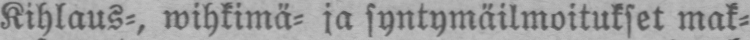Kihlaus-, wihkimä- ja syntymäilmoitukset mak-
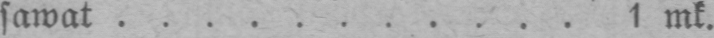sawat 1 mk.
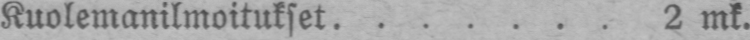Kuolemanilmoitukset 2 mk.
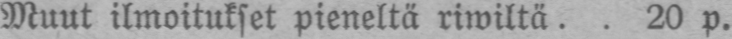Muut ilmoitukset pieneltä riwiltä 20 p.
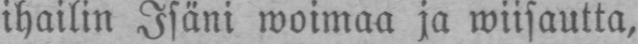ihailin Isäni woimaa ja wiisautta,
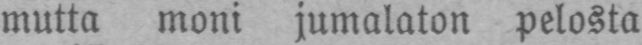mutta moni jumalaton pelosta
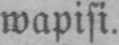wapisi.
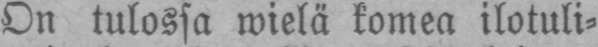On tulossa wielä komea ilotuli-
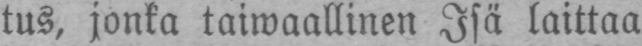tus, jonka taiwaallinen Isä laittaa
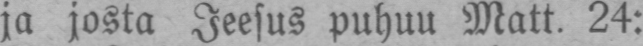ja josta Jeesus puhuu Matt. 24:
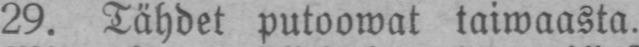29. Tähdet putoowat taiwaasta.
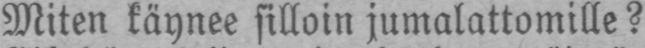Miten käynee silloin jumalattomille?
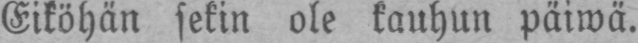Eiköhän sekin ole kauhun päiwä.
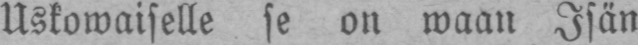Uskowaiselle se on waan Isän
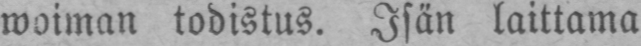woiman todistus. Isän laittama
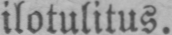ilotulitus.
